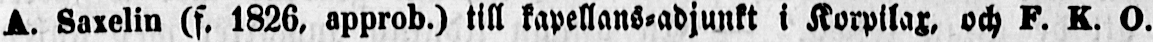A. Saxelin (f. 1826, approb.) till kapellans-adjunkt i Korpilax, och F. K. O.
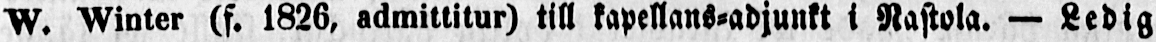W. Winter (f. 1826, admittitur) till kapellans-adjunkt i Nastola. — Ledig
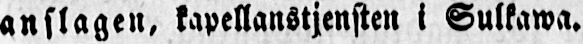anslagen, kapellanstjensten i Sulkawa.
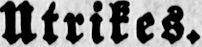Utrikes.
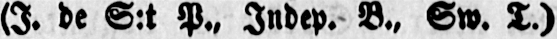(I. de S:t P., Indep. B., Sw. T.)
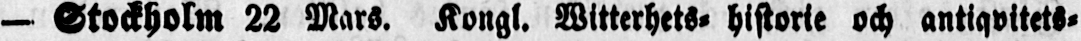— Stockholm 22 Mars. Kongl. Witterhets- historie och antiqvitets-
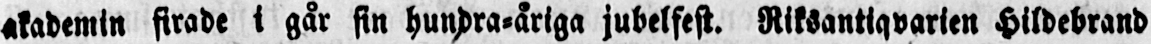akademin firade i går sin hundra-åriga jubelfest. Riksantiqvarien Hildebrand
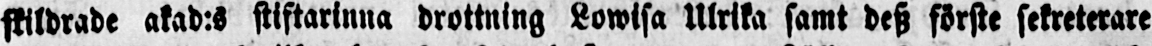skildrade akad:s stiftarinna drottning Lowisa Ulrika samt desz förste sekreterare
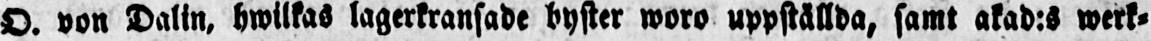O. von Dalin, hwilkas lagerkransade byster woro uppställda, samt akad:s werk-
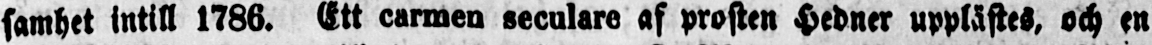samhet intill 1786. Ett carmen seculare af prosten Hedner upplästes, och en
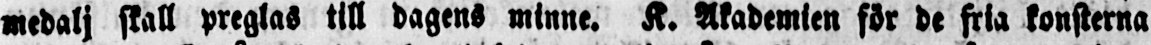medalj skall preglas till dagens minne. K. Akademien för de fria konsterna
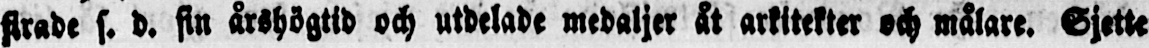firade s. d. fin årshögtid och utdelade medaljer åt arkitekter och målare. Sjette
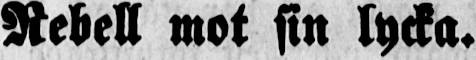Rebell mot sin lycka.
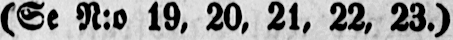(Se N:o l9, 20, 21, 22, 23.)
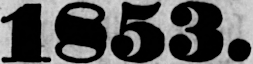1853.
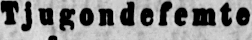Tjugondefemte
